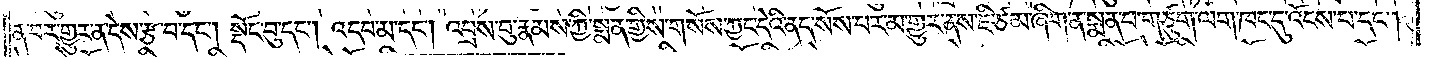ན་བར་གྱུར་ན་དེས་རྩ་བ་དང༌། སྡོང་བུ་དང༌། འདབ་མ་དང༌། འབྲས་བུ་རྣམས་ཀྱི་སྨན་གྱིས་གསོས་ཀྱང་དེའི་ནད་སོས་པར་མ་གྱུར་ནས་ཇི་ཙམ་ཞིག་ན་སྨན་པ་གཙུག་ལག་ཁང་དུ་འོངས་པ་དང༌།
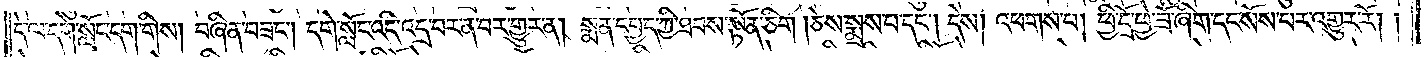དེ་ལ་དགེ་སློང་དག་གིས། བཞིན་བཟང༌། དགེ་སློང་འདི་འདྲ་བར་ན་བར་གྱུར་ན། སྨན་དཔྱད་ཀྱི་ཐབས་སྟོན་ཅིག །ཅེས་སྨྲས་པ་དང༌། དེས། འཕགས་པ། ཕྱི་དྲོ་ཕྱེ་ཟོ་ཞིག་དང་སོས་པར་འགྱུར་རོ། །
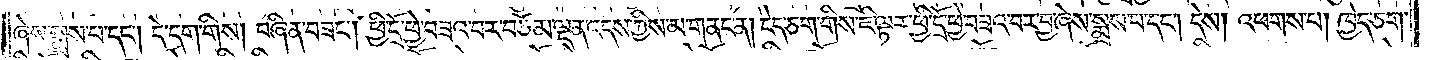ཞེས་སྨྲས་པ་དང༌། དེ་དག་གིས། བཞིན་བཟང༌། ཕྱི་དྲོ་ཕྱི་བཟའ་བར་བཅོམ་ལྡན་འདས་ཀྱིས་མ་གནང་ན། ངེད་ཅག་གིས་ཇི་ལྟར་ཕྱི་དྲོ་ཕྱེ་བཟའ་བར་བྱ་ཞེས་སྨྲས་པ་དང༌། དེས། འཕགས་པ། ཁྱེད་ཅག་
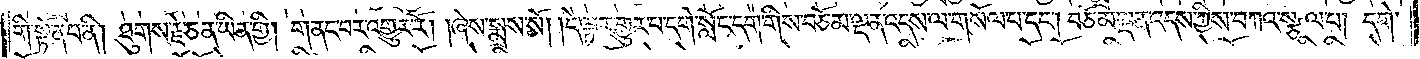གི་སྟོན་པ་ནི། ཐུགས་རྗེ་ཅན་ཡིན་གྱི། གནང་བར་འགྱུར་རོ། །ཞེས་སྨྲས་སོ། །དེ་ལྟར་གྱུར་པ་དགེ་སློང་དག་གིས་བཅོམ་ལྡན་འདས་ལ་གསོལ་པ་དང༌། བཅོམ་ལྡན་འདས་ཀྱིས་བཀའ་སྩལ་པ། དགེ་
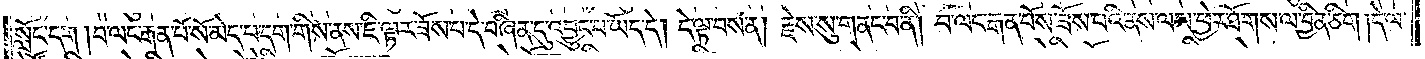སློང་དག །བ་ལང་རྒན་པོ་སོ་མེད་པ་དག་གིས་ནས་ཇི་ལྟར་ཟོས་པ་དེ་བཞིན་དུ་འབྱུང་བ་ཡོད་དེ། དེ་ལྟ་བས་ན། རྗེས་སུ་གནང་བ་ནི། བ་ལང་རྒན་པོས་ཟོས་པའི་ནས་ལས་ཕྱེར་ཐོགས་ལ་བྱིན་ཅིག །དེ་ལ་
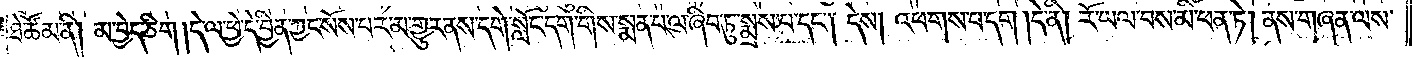ཐེ་ཚོམ་ནི། མ་བྱེད་ཅིག །དེ་ལ་ཕྱེ་དེ་བྱིན་ཀྱང་སོས་པར་མ་གྱུར་ནས་དགེ་སློང་དག་གིས་སྨན་པ་ལ་ཞིབ་ཏུ་སྨྲས་པ་དང༌། དེས། འཕགས་པ་དག །དེ་ནི། རོ་ཡལ་བས་མི་ཕན་ཏེ། ནས་གཞན་ལས་
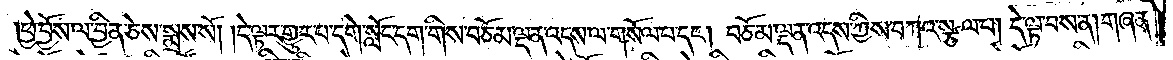ཕྱེ་བྱོས་ལ་བྱིན་ཅེས་སྨྲས་སོ། །དེ་ལྟར་གྱུར་པ་དགེ་སློང་དག་གིས་བཅོམ་ལྡན་འདས་ལ་གསོལ་བ་དང༌། བཅོམ་ལྡན་འདས་ཀྱིས་བཀའ་སྩལ་པ། དེ་ལྟ་བས་ན། གཞན་
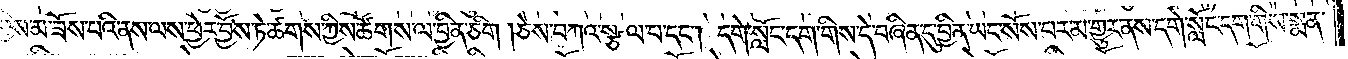གྱིས་མ་ཟོས་པའི་ནས་ལས་ཕྱིར་བྱོས་ཏེ་ཚགས་ཀྱིས་ཚོགས་ལ་བྱིན་ཅིག །ཅེས་བཀའ་སྩལ་པ་དང༌། དགེ་སློང་དག་གིས་དེ་བཞིན་དུ་བྱིན་ཡང་སོས་པར་མ་གྱུར་ནས་དགེ་སློང་བདག་གིས་སྨན་
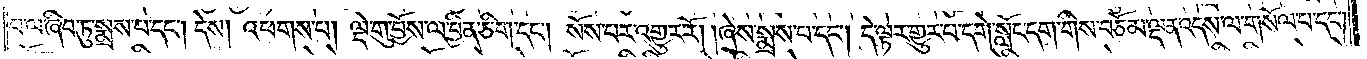པ་ལ་ཞིབ་ཏུ་སྨྲས་པ་དང༌། དེས། འཕགས་པ། ལྡེ་གུ་བྱོས་ལ་བྱིན་ཅིག་དང༌། སོས་པར་འགྱུར་རོ། །ཞེས་སྨྲས་པ་དང༌། དེ་ལྟར་གྱུར་པ་དགེ་སློང་དག་གིས་བཅོམ་ལྡན་འདས་ལ་གསོལ་པ་དང༌།
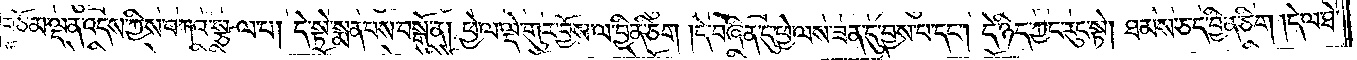བཅོམ་ལྡན་འདས་ཀྱིས་བཀའ་སྩལ་པ། དེ་སྟེ་སྨན་པས་བསྒོ་ན། ཕྱེ་ལ་ལྡེ་གུར་བྱོས་ལ་བྱིན་ཅིག །དེ་བཞིན་དུ་ཕྱེ་ལས་ཟན་དུ་བྱས་པ་དང༌། དེ་ཉིད་ཀྱང་རུང་སྟེ། ཐམས་ཅད་བྱིན་ཅིག །དེ་ལ་ཐེ་
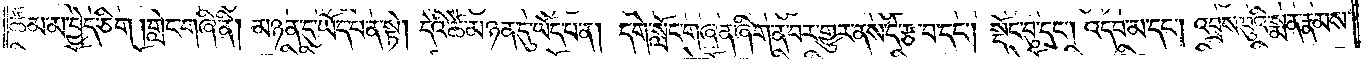ཚོམ་མ་བྱེད་ཅིག །གླེང་གཞི་ནི། མཉན་དུ་ཡོད་པ་ན་སྟེ། དེའི་ཚེ་མཉན་དུ་ཡོད་པ་ན། དགེ་སློང་གཞན་ཞིག་ན་བར་གྱུར་ནས་དེ་རྩ་བ་དང༌། སྡོང་བུ་དང༌། འདབ་མ་དང༌། འབྲས་བུའི་སྨན་རྣམས་
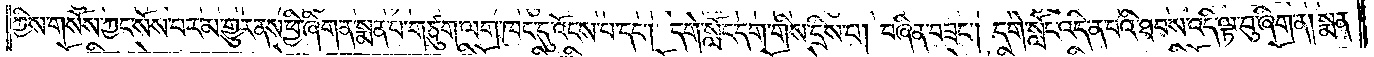ཀྱིས་གསོས་ཀྱང་སོས་པར་མ་གྱུར་ནས་ཕྱི་ཞིག་ན་སྨན་པ་གཙུག་ལག་ཁང་དུ་འོངས་པ་དང༌། དགེ་སློང་དག་གིས་དྲིས་པ། བཞིན་བཟང༌། དགེ་སློང་འདི་ན་བའི་ཐབས་འདི་ལྟ་བུ་ཞིག་ན། སྨན་
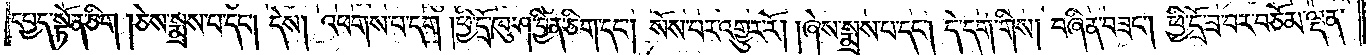དཔྱད་སྟོན་ཅིག །ཅེས་སྨྲས་པ་དང༌། དེས། འཕགས་པ་དག །ཕྱི་དྲོ་ཁུ་ཤ་བྱིན་ཅིག་དང༌། སོས་པར་འགྱུར་རོ། །ཞེས་སྨྲས་པ་དང༌། དེ་དག་གིས། བཞིན་བཟང༌། ཕྱི་དྲོ་ཟ་བར་བཅོམ་ལྡན་
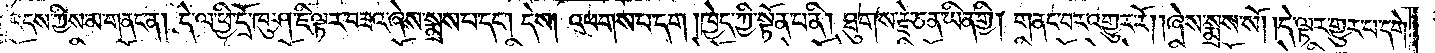འདས་ཀྱིས་མ་གནང་ན། དེ་ལ་ཕྱི་དྲོ་ཁུ་ཤ་ཇི་ལྟར་བཟའ་ཞེས་སྨྲས་པ་དང༌། དེས། འཕགས་པ་དག །ཁྱེད་ཀྱི་སྟོན་པ་ནི། ཐུགས་རྗེ་ཅན་ཡིན་གྱི། གནང་བར་འགྱུར་རོ། །ཞེས་སྨྲས་སོ། །དེ་ལྟར་གྱུར་པ་དགེ་
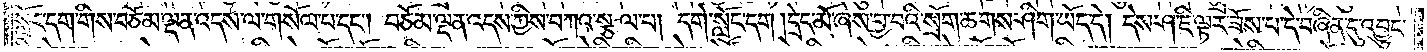སློང་དག་གིས་བཅོམ་ལྡན་འདས་ལ་གསོལ་པ་དང༌། བཅོམ་ལྡན་འདས་ཀྱིས་བཀའ་སྩལ་པ། དགེ་སློང་དག །དྲེད་མོ་ཞེས་བྱ་བའི་སྲོག་ཆགས་ཤིག་ཡོད་དེ། དེས་ཤ་ཇི་ལྟར་ཟོས་པ་དེ་བཞིན་དུ་འབྱུང་
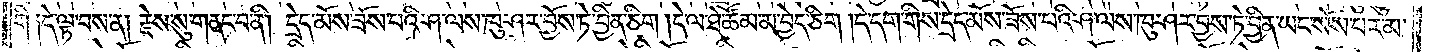གི་༑དེ་ལྟ་བས་ན། རྗེས་སུ་གནང་བ་ནི། དྲེད་མོས་ཟོས་པའི་ཤ་ལས་ཁུ་ཤར་བྱོས་ཏེ་བྱིན་ཅིག །དེ་ལ་ཐེ་ཚོམ་མ་བྱེད་ཅིག །དེ་དག་གིས་དྲེད་མོས་ཟོས་པའི་ཤ་ལས་ཁུ་ཤར་བྱས་ཏེ་བྱིན་ཡང་སོས་པར་མ་
